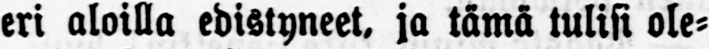eri aloilla edistyneet, ja tämä tulisi ole-
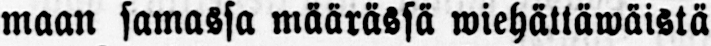maan samassa määrässä wiehättäwäistä
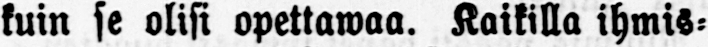kuin se olisi opettawaa. Kaikilla ihmis-
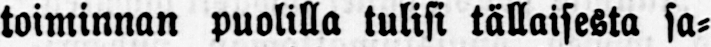toiminnan puolilla tulisi tällaisesta sa-
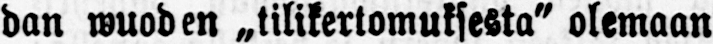dan wuoden „tilikertomuksesta" olemaan
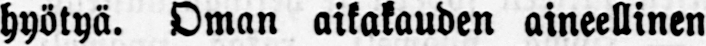hyötyä. Oman aikakauden aineellinen
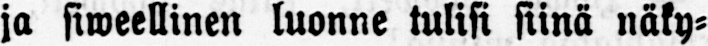ja siweellinen luonne tulisi siinä näky-
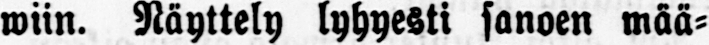wiin. Näyttely lyhyesti sanoen mää-
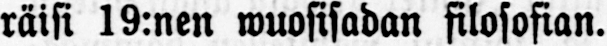räisi 19:nen wuosisadan filosofian.
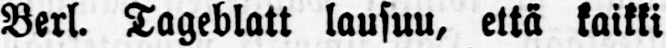Berl. Tageblatt lausuu, että kaikki
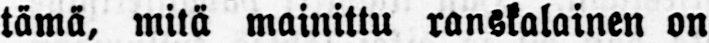tämä, mitä mainittu ranskalainen on
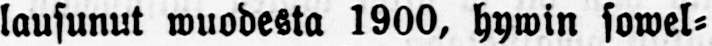lausunut wuodesta 1900, hywin sowel-
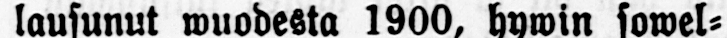tuu myöskin wuosiin 1897 ja 1898,
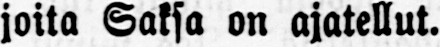joita Saksa on ajatellut.
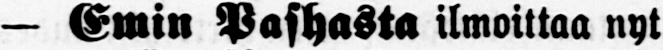— Emin Pashasta ilmoittaa nyt
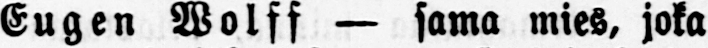Eugen Wolff — sama mies, joka
